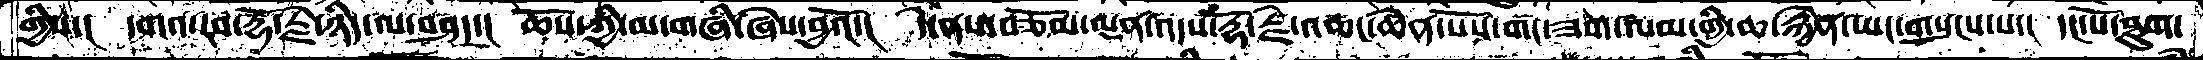གྱིས་།  དགའ་རབ་རྡོ་རྗེ་ཉིད་ལ་བཤད་།  ཆོས་ཀྱི་མ་གཞི་ཞེས་བྱའོ་།  དེ་ནས་བཅོམ་ལྡན་འདས་རྡོ་རྗེ་འཆང་ཆེན་པོས་གང་ཟག་ལམ་གྱི་ཆ་རྐྱེན་ཡང་གསུངས་པ་།  དང་པོ་ཐུག་
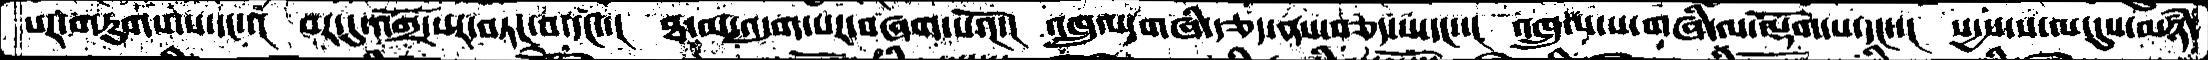པར་གཏུགས་པ་དང་་།  བར་དུ་འགྲོ་སར་བཏང་བ་དང་་།  ཐ་མ་འདུག་སར་བཞག་པའོ་།  འཁྲུལ་གཞི་རྩད་ནས་བཅད་པ་དང་་།  འཁྲུལ་པ་གཞི་ལ་ལྡོག་པ་དང་་།  སདྱས་ས་ལ་དུས་མཉཾ་
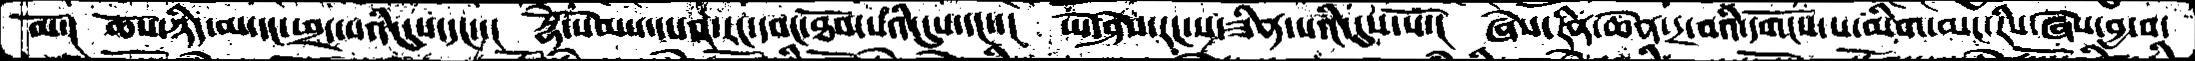མོ་།  ཆོས་ཉིད་མ་དང་ཕྲད་པའི་དུས་དང་་།  རྡོེ་སེམས་དཔའ་རང་དབང་ཐོབ་པའི་དུས་དང་་།  ཡེ་ཤེས་རང་ས་ཟིན་པའི་དུས་སོ་།  ཞེས་རིན་ཆེན་དྲ་བའི་དགོངས་པ་མིག་མང་རིས་ཞེས་བྱ་བ་
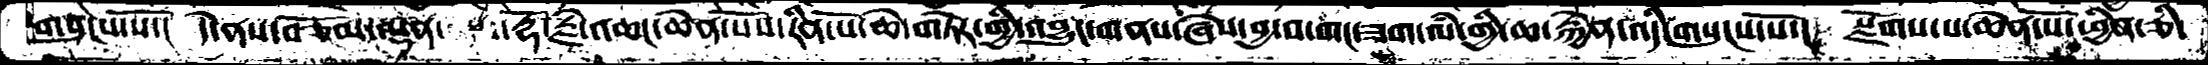གསུངས་སོ་།  དེ་ནས་བཅོམ་ལྡན་   རྡོ་རྗེ་འཆང་ཆེན་པོས་རིན་པོ་ཆེ་གཏེར་གྱི་འབྱུང་གནས་ཞེས་བྱ་བ་གང་ཟག་ལཾ་གྱི་ཆ་རྐྱེན་འདི་གསུངས་སོ་།  སྫོགས་པ་ཆེན་པོ་ཕྱིན་ཅི་
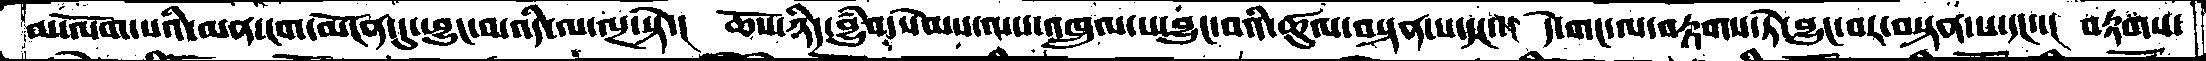མ་ལོག་པའི་མན་ངག་མངོན་དུ་ཕྱུང་བ་འདི་ལ་ལྔ་སྟེ་།  ཆོས་ཉིད་བྱུཾབ་སེམས་ལས་འཁྲུལ་པ་བྱུང་བའི་ཚུལ་བསྟན་པ་དང་་།  དེ་གང་ལ་བརྟགས་ཏེ་བྱུང་བར་བསྟན་པ་དང་་།  བརྟགས་
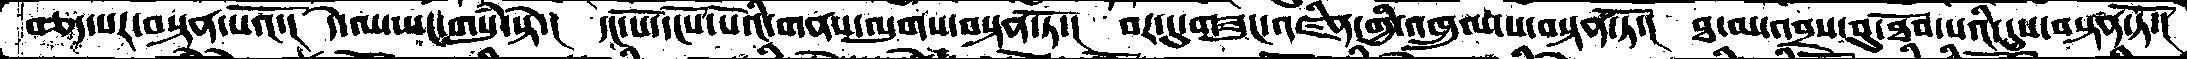བཅད་པར་བསྟན་པའོ་།  དེ་ལ་ཡང་གསུཾ་སྟེ་།  དང་པོ་དངོས་པོའི་གནས་ལུགས་བསྟན་ཏོ་།  བར་དུ་གཟུང་འཛིན་གྱི་འཁྲུལ་པ་བསྟན་ཏོ་།  ཐ་མ་འབྲས་བུ་ཐོབ་པའི་དུས་བསྟན་ཏོ་།
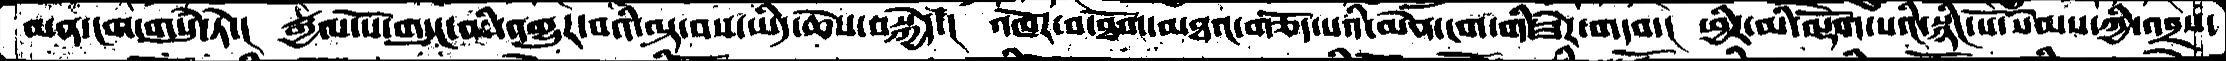མན་ངག་གསུཾ་ཏེ་།  རྒྱལ་པོ་གདུང་མི་འགྱུར་བའི་ལྟ་བས་ཡིད་ཆེས་བསྐྱེད་།  འཁོར་བ་ཐོག་མཐའ་གཅོད་པའི་མེན་ངག་གིཟེར་གདབ་།  ཕྱིར་མི་ལྡོག་པའི་སའི་སྙིང་པོ་སེམས་ཀྱི་འབྲས་
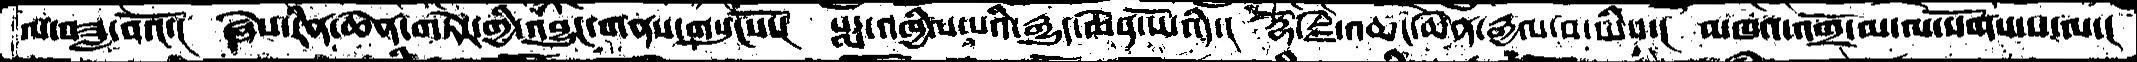ལ་བཟླ་བའོ་།  ཞེས་རིན་ཆེན་གཏེར་གྱི་འབྱུང་གནས་གསུངསོ་།  པདྨ་འཁྱིལ་པའི་རྒྱུད་ཆེན་པོ་འདི་།  རྡོ་རྗེ་འཆང་ཆེན་རྒྱལ་བ་ཡིས་།  མཁའ་འགྲོ་མ་ལ་སོགས་པ་ལ་།
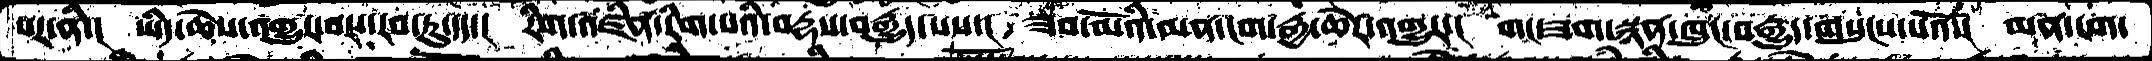པར་ནི་།  ཡིད་ཆེས་འགྱུར་བར་རབ་ཏུ་དད་།  རིག་འཛིན་རིག་པའི་བརྡས་བརྒྱུད་པས་།  ཟབ་མོའི་མན་ངག་རྒྱ་ཆེར་འགྱུར་།  གང་ཟག་སྙན་ཁུང་བརྒྱུད་གསུངས་པའོ་།  མན་ངག་
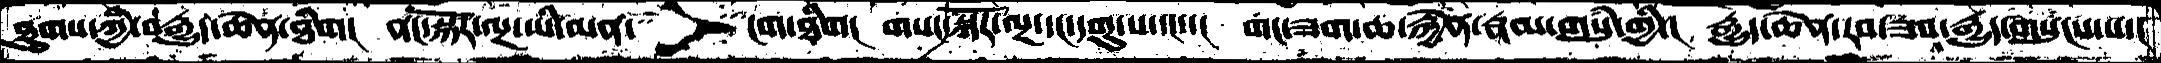ཐུགས་ཀྱི་བརྒྱུད་ཆེན་ཐིག།  ནང་སྐོར་ལྔ་ཡི་མན་      ངག་ཐིག།  གསང་སྐོར་ལྔ་དང་དགུ་པ་དང་་།  གང་ཟག་ཆ་རྐྱེན་རྣམ་གསུཾ་གྱི་།  རྒྱུད་ཆེན་རབ་ཟབ་རྒྱུད་གསུངས་པ་།
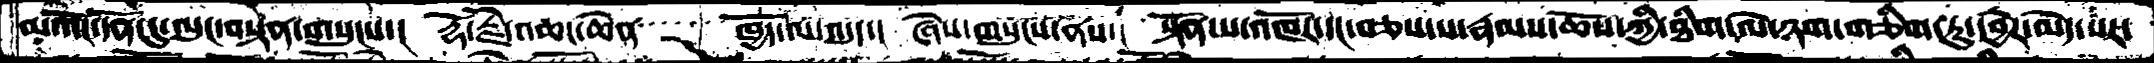མ་འོང་དོན་དུ་ལུང་བསྟན་གསུངས་།   རྡོ་རྗེ་འཆང་ཆེན་     ཁྱོད་ལ་འདུད་།  ཞེས་གསུངས་ནས་།  སྟོན་པ་འཁོར་དང་བཅས་པ་རྣམས་ཆོས་ཀྱི་ཐིག་ལེ་ཉག་གཅིག་ཏུ་དབྱེར་མེད་པར་
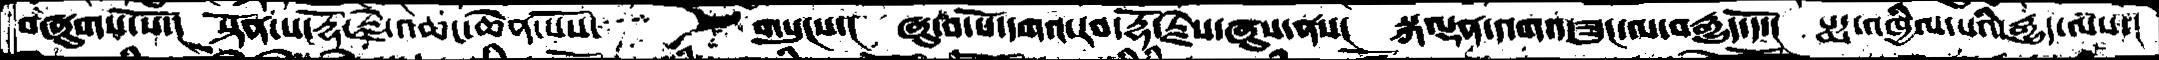བཞུགས་སོ་།  སྟོན་པ་རྡོ་རྗེ་འཆང་ཆེན་པོས་    གསུངས་།  ཞུ་བ་པོ་དགའ་རབ་རྡོ་རྗེས་ཞུས་ནས།  སྐལྡན་འགའ་ཟུང་ལ་བརྒྱུད་དོ་།  པདྨ་འཁྱིལ་པའི་རྒྱུད་ལས་།
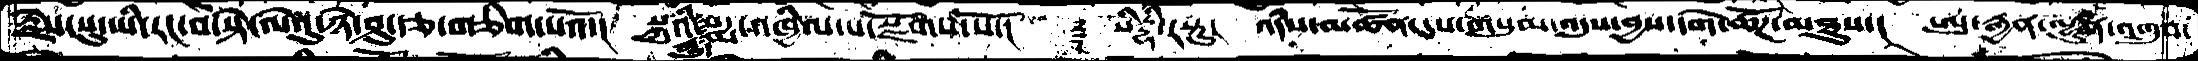རྗེས་སུ་ཡི་རང་བ་སྟེ་ལེའུ་ཉེ་ཤུ་རྩ་གཅིག་པའོ་། སྐུའི་རྒྱུད་པདྨ་འཁྱིལ་པ་སྫོགས་སོ་།  ༈  སིཏྡྷི་རསྟུ། འདིས་མཚོན་དུས་གསུམ་འདུས་བྱས་དགེ་ཚོཌ་མཐུས་། ཨུ་རྒྱན་ལྷུན་འགྲུབ་
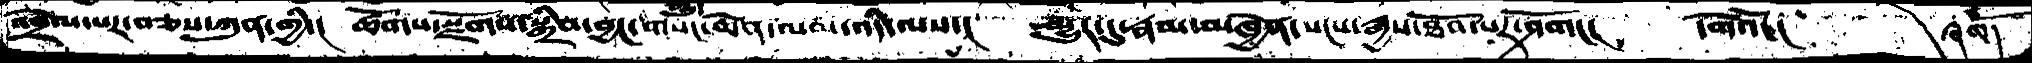འབྲེལ་པར་བཅས་ཀུན་གྱི་།  ཚོགས་སྫོགས་སྒྲིབ་བྱང་གསང་ཆེན་ལམ་འདི་ལས་།  མྱུར་དུ་རྣམ་མཁྱེན་སངས་རྒྱས་ཐོབ་པར་ཤོག་།  དགེའོ་།    ཞེས་
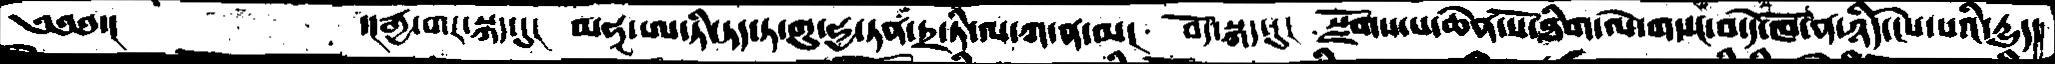༄༅༅་།        ་།རྒྱ་གར་སྐད་དུ་།   མཧཱ་ཨ་ཏི་ཏད་ཏ་གུ་ཧྱ་ཏན་ཏྲ་ཏི་ལ་ཀ་ན་མ།  བོད་སྐད་དུ།  སྫོགས་པ་ཆེན་པོ་ཐིག་ལེ་གསང་བ་དེ་ཁོ་ན་ཉིད་ངེས་པའི་དྱུད་
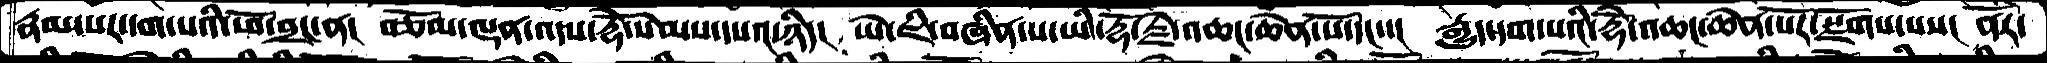རྣམ་པར་དག་པའི་ཕོ་བྲང་ན།  བཅོམ་ལྡན་འདས་རྡོེ་སེམས་དཔའ་ཉིད།  ཡེ་ཇི་བཞིན་པ་ཡི་རྡོ་རྗེ་འཆང་ཆེན་པོ་དང་་།  རྒྱུད་དག་པའི་རྡོེ་འཆང་ཆེན་པོར་སྫོགས་པས།  ནོར་
